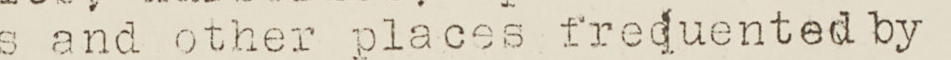English-language China Post
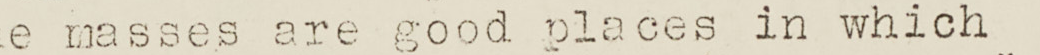says the Chinese Communists are los
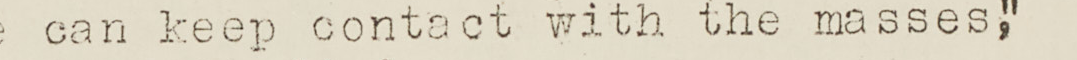ing their "rosy hopes" for the future.
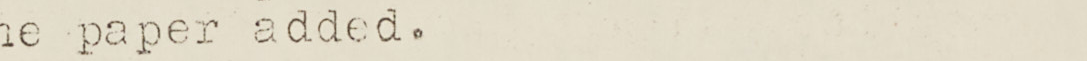The paper was commenting on Peiping's
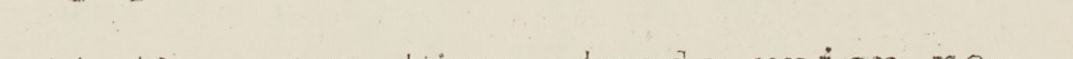celebration of October 1 as the anni
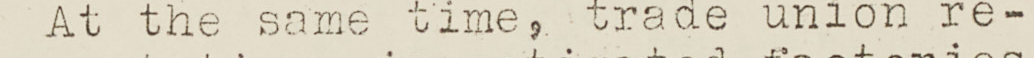versary of its mainland seizure of
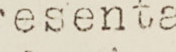power.
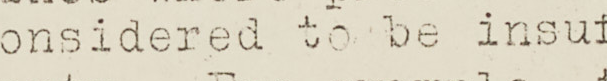The editorial said:-
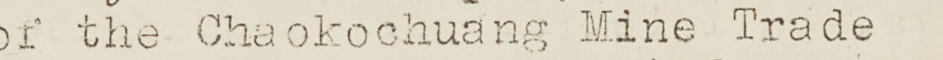"At the very beginning-14 or 13
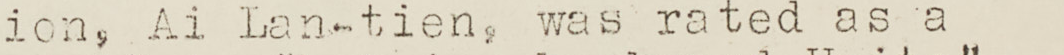years ago-the Red leader in Peiping
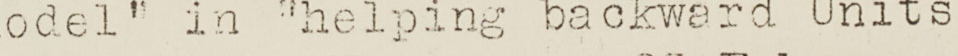might have honestly entertained
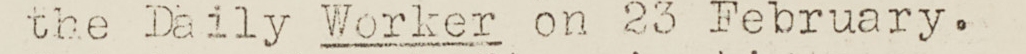hopes of a bright future for their
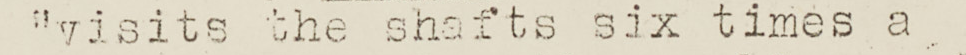Communist regime. At that time,
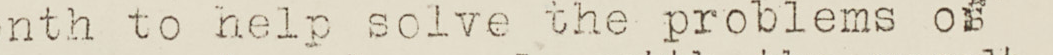many people in the world could still
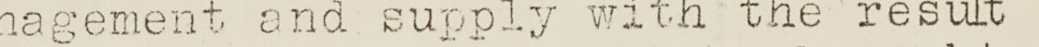be deceived and led to believe that
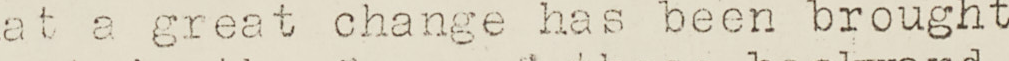the Peiping regime had ushered in
